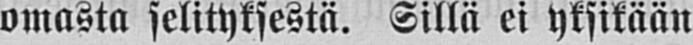omasta selityksestä. Sillä ei yksikään
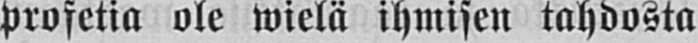profetia ole wielä ihmisen tahdosta
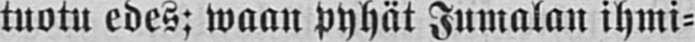tuotu edes; waan pyhät Jumalan ihmi-
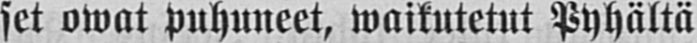set owat puhuneet, waikutetut Pyhältä
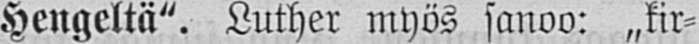Hengeltä". Luther myös sanoo: „kir-
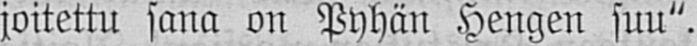joitettu sana on Pyhän Hengen suu".
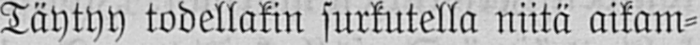Täytyy todellakin surkutella niitä aikam-
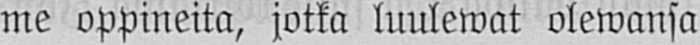me oppineita, jotka luulewat olewansa
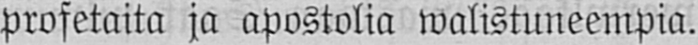profetaita ja apostolia walistuneempia.
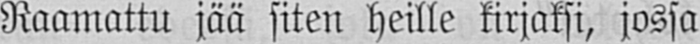Raamattu jää siten heille kirjaksi, jossa
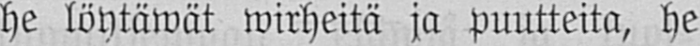he löytäwät wirheitä ja puutteita, he
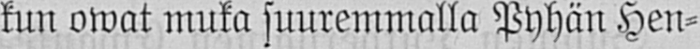kun owat muka suuremmalla Pyhän Hen-
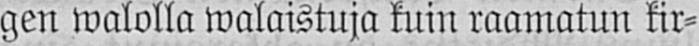gen walolla walaistuja kuin raamatun kir-
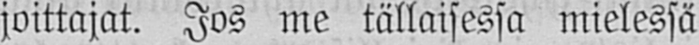joittajat. Jos me tällaisessa mielessä
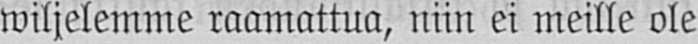wiljelemme raamattua, niin ei meille ole
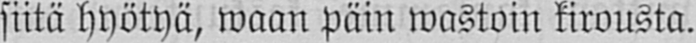siitä hyötyä, waan päin wastoin kirousta.
